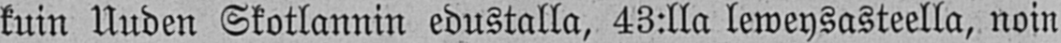kuin Uuden Skotlannin edustalla, 43:lla leweysasteella, noin
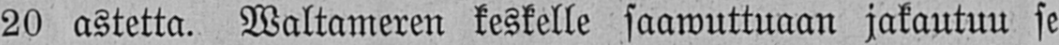20 astetta. Waltameren keskelle saawuttuaan jakautuu se
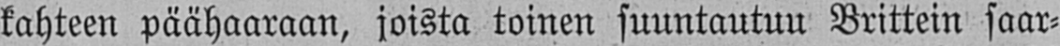kahteen päähaaraan, joista toinen suuntautuu Brittein saar-
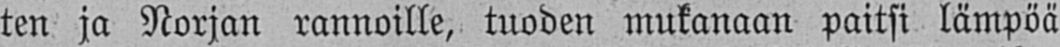ten ja Norjan rannoille, tuoden mukanaan paitsi lämpöä
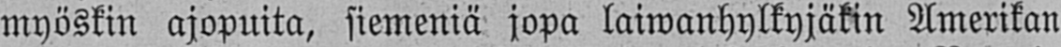myöskin ajopuita, siemeniä jopa laiwanhylkyjäkin Amerikan
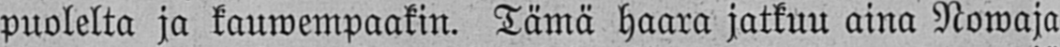puolelta ja kauwempaakin. Tämä haara jatkuu aina Nowaja
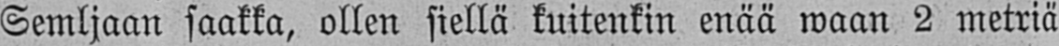Semljaan saakka, ollen siellä kuitenkin enää waan 2 metriä
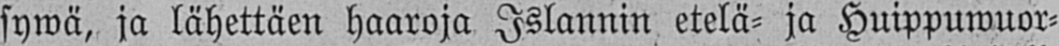sywä, ja lähettäen haaroja Islannin etelä- ja Huippuwuor-
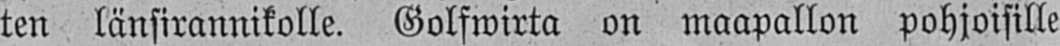ten länsirannikolle. Golfwirta on maapallon pohjoisille
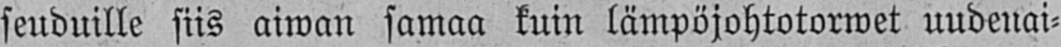seuduille siis aiwan samaa kuin lämpöjohtotorwet uudenai-
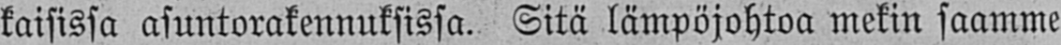kaisissa asuntorakennuksissa. Sitä lämpöjohtoa mekin saamme
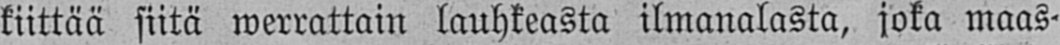kiittää siitä werrattain lauhkeasta ilmanalasta, joka maas-
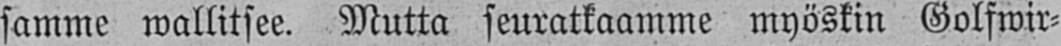samme wallitsee. Mutta seuratkaamme myöskin Golfwir-
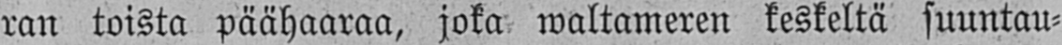ran toista päähaaraa, joka waltameren keskeltä suuntau-
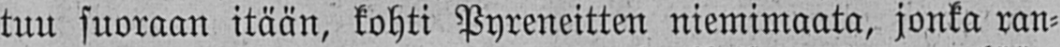tuu suoraan itään, kohti Pyreneitten niemimaata, jonka ran-
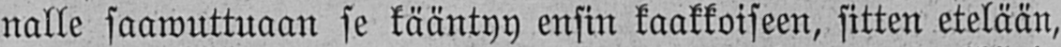nalle saawuttuaan se kääntyy ensin kaakkoiseen, sitten etelään,
